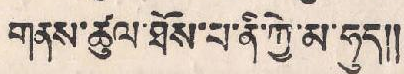གནས་ཚུལ་ཐོས་པ་ནི་ཀྱེ་མ་ཧུད།།
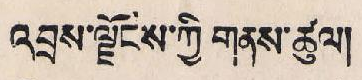འབྲས་ལྗོངས་ཀྱི་གནས་ཚུལ།
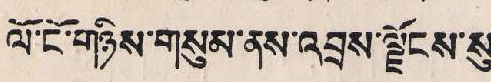ལོ་ངོ་གཉིས་གསུམ་ནས་འབྲས་ལྗོངས་སུ་
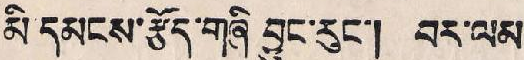མི་དམངས་རྩོད་གཞི བྱུང་རུང་། བར་ལམ་
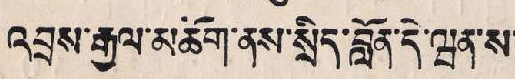འབྲས་རྒྱལ་མཆོག་ནས་སྲོད་བློན་དེ་ཝན་ས་
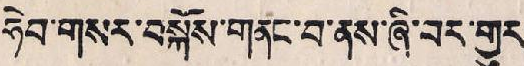ཧེབ་གསར་བསྐོས་གནང་བ་ནས་ཞི་བར་གྱུར་
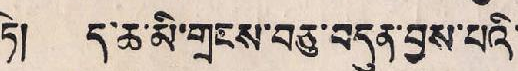ཏེ། ད་ཆ་མི་གྲངས་བཅུ་བདུན་བྱས་པའི་
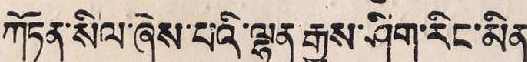ཀོཏན་སིལ་ཞིས་པའི་ལྷན་རྒྱས་ཤིག་རིང་མིན་
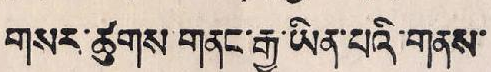གསར་ཚུགས་གནང་རྒྱུ་ཡིན་པའི་གནས་
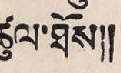ཚུལ་ཐོས།།
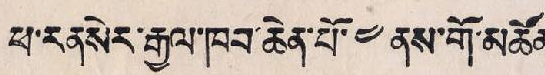ཕ་རནསེར་རྒྱལ་ཁབ་ཆེན་པོ་ ༤ ནས་གོ་མཚོན་
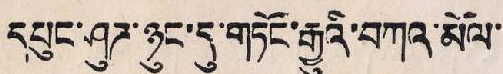དཔུང་ཤུཊ་ཉུང་དུ་གཏོང་རྒྱུའི་བཀའ་མོལ་
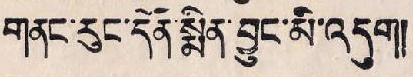གནང་རུང་དོན་སྨིན་བྱུང་མི་འདུག།
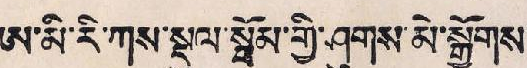ཨ་མི་རི་ཀས་སྡུལ་སྦོམ་གྱི་ཤུགས་མེ་སྒྱོགས་
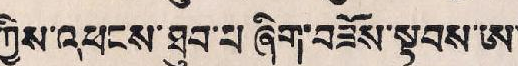ཀྱིས་འཕངས་ཐུབ་པ་ཞིག་བཟོས་སྟབས་ཨ་
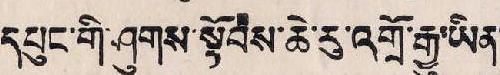དཔུང་གི་ཤུགས་སྟོབས་ཆེ་རུ་འགྲོ་རྒྱུ་ཡིན་
